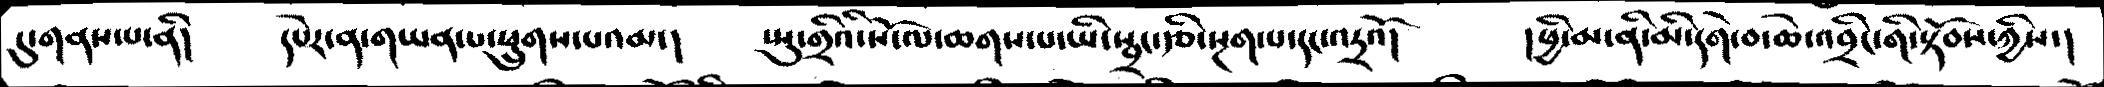དུ་གནས་པ་ནི།  དཔེར་ན་གཡན་པ་ཕྲུགས་པའམ་།  སྤུ་གྲིའི་སོ་ལ་ཆགས་པ་ཡི་སྦྲང་རྩི་སྔག་པ་དང་འདྲའོ།     །ཕྱི་མ་ནི་མི་དགེ་བ་ཆེ་འབྲིང་གི་སྟོབས་ཀྱིས་།
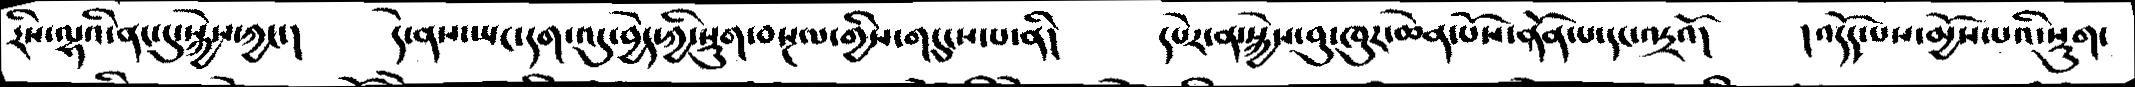རིས་ལྷའི་ནང་དུ་སྐྱེས་ཀྱང་།   དེ་ནས་ཡང་དག་འདུ་བྱེད་ཀྱི་སྡུག་བསྔལ་གྱིས་གདུངས་པ་ནི།   དཔེར་ན་སྐྱེས་བུ་ཁུར་ཆེན་པོས་ནོན་པ་དང་འདྲའོ།   །འདོད་པས་མྱོས་པའི་སྡུག་
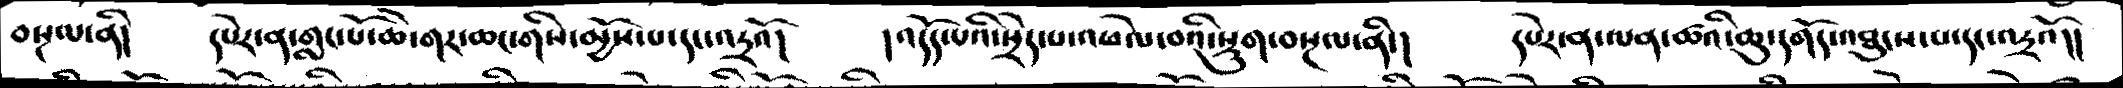བསྔལ་ནི།   དཔེར་ན་གླང་པོ་ཆེ་གར་ཆང་གིས་མྱོས་པ་དང་འདྲའོ།     །འདོད་པའི་སྲེད་པ་འཕེལ་བའི་སྡུག་བསྔལ་ནི་།  དཔེར་ན་ལན་ཚའི་ཆུ་དགོད་འཐུངས་པ་དང་འདྲའོ།།
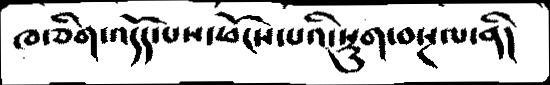ཁ་ཅིག་འདོད་པས་ཕོངས་པའི་སྡུག་བསྔལ་ནི།
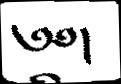༄༅།
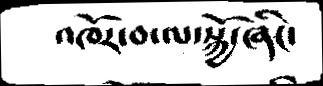འཁོར་བ་ལ་སྐྱོ་ཞིང་
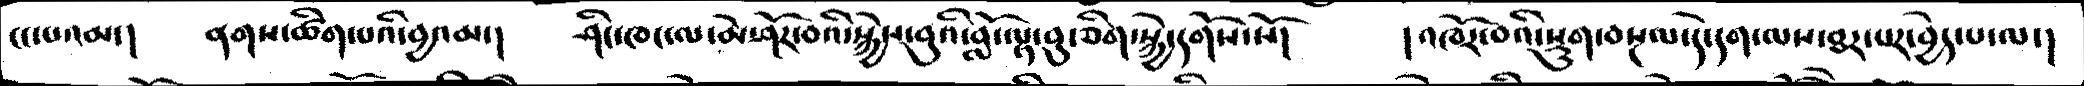ངང་པའམ་།   ནགས་ཚིག་པའི་བྱའམ་།   ཤིང་ཁང་ལ་མེ་ཤོར་བའི་སྐྱེས་བུའི་བློ་ལྟ་བུ་ཅིག་སྐྱེ་དགོས་སོ།   །འཁོར་བའི་སྡུག་བསྔལ་དེ་དག་ལས་ཐར་པར་བྱེད་པ་ལ་།
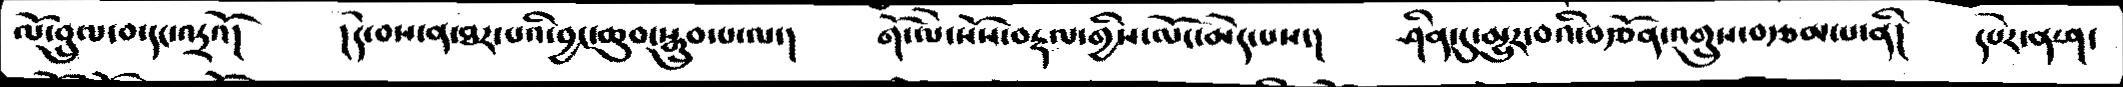ལོ་བྲུལ་བ་དང་འདྲའོ།    །དེ་བས་ན་ཐར་པའི་བྱང་ཆུབ་སྒྲུབ་པ་ལ་།   གོ་ལེ་སོས་བརྡལ་གྱི་ལོང་མེད་པས་།  ཤིན་དུ་མྱུར་བའི་བརྩོན་འགྲུས་བརྩམ་པ་ནི།  དཔེར་ན་ཤ་
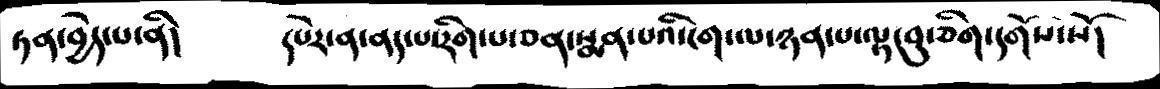ཏན་བྱེད་པ་ནི།      དཔེར་ན་ནད་པ་རིག་པ་ཅན་སྨན་པའི་ངག་ལ་ཉན་པ་ལྟ་བུ་ཅིག་དགོས་སོ།
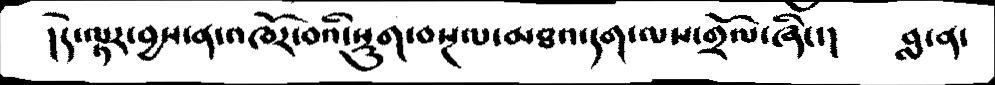།དེ་ལྟར་བྱས་ན་འཁོར་བའི་སྡུག་བསྔལ་མཐའ་དག་ལས་གྲོལ་ཞིང་།      བླ་ན་
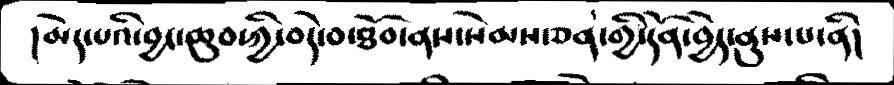། མེད་པའི་བྱང་ཆུབ་ཀྱི་བདེ་བ་ཐོབ་ནས་སེམས་ཅན་གྱི་དོན་བྱེད་ནུས་པ་ནི།
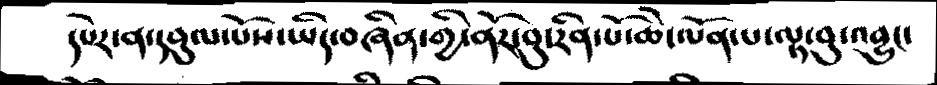དཔེར་ན་དབུལ་པོས་ཡིད་བཞིན་གྱི་ནོར་བུ་རིན་པོ་ཆེ་ལོན་པ་ལྟ་བུ་འབྱུང་
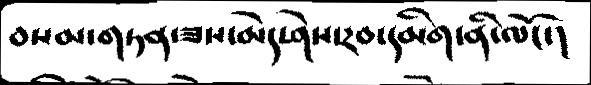བསམ་གཏན་ཟས་མེད་ཤེས་རབ་དམིག་ནི་ལོང་།
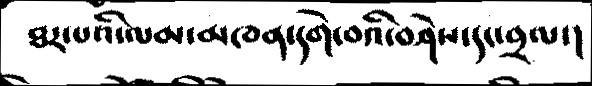ཐར་པའི་ལམ་མཁན་དགེ་བའི་བཤེས་དང་བྲལ་།
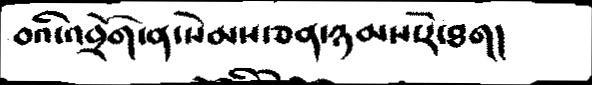བའི་འབྲོག་ན་སེམས་ཅན་ཉམས་རེ་ཐག།
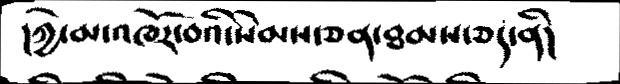།ཀྱེ་མ་འཁོར་བའི་སེམས་ཅན་ཐམས་ཅད་ནི།
